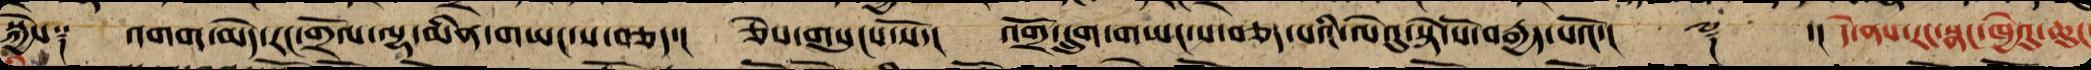སྐྱེས༑ འགག་མེད་རང་གྲོལ་ལྷ་མིན་གཡང་ས་བཅད་། ཅེས་གསུངས་སོ་། འགྲོ་དྲུག་གཡང་ས་བཅད་པའི་ལེའུ་སྟེ་སོ་བརྒྱད་པའོ་།། ༈ ་། དེ་ནས་རང་སྣང་ཁྱེའུ་ཆུང་
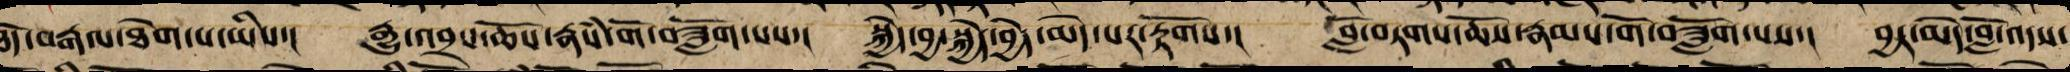ཐོད་རྒལ་ཐེག་པ་ཡིས་། རྒྱུ་འབྲས་ཆོས་རྣཾས་གོ་བཟློག་པས་། སྐྱེད་བྱ་སྐྱེད་བྱེད་མེད་པར་རྟོགས་། བློ་བཏགས་ཆོས་རྣམས་གོ་བཟློག་པས་། བྱར་མེད་བློ་འདས་
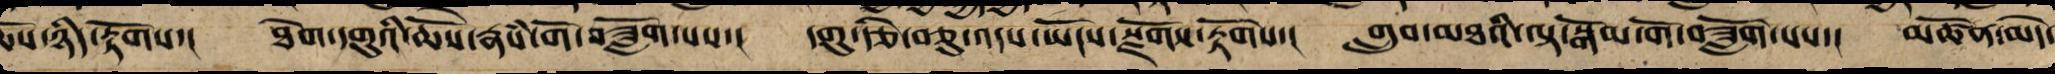ཆོས་ཉིད་རྟོགས་། ཐེག་དགུའི་ཆོས་རྣཾས་གོ་བཟློག་པས་། དགུ་རྩེ་བཅུ་འདས་ཡོངས་སྫོགས་རྟོགས་། གྲུབ་མཐའི་ལྟ་སྒོམ་གོ་བཟློག་པས་། མཚོན་མེད་
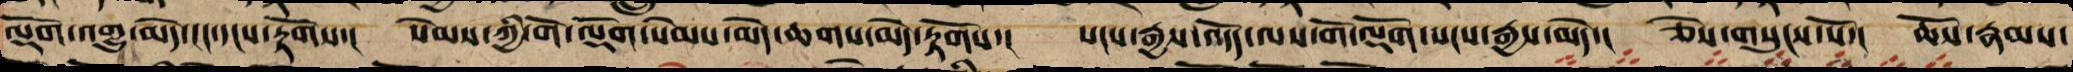བཟློག་འགྱུ་མེད་ངང་དྭངས་རྟོགས་། སེམས་ཀྱི་གོ་བཟློག་སེམས་མེད་ཆགས་མེད་རྟོགས་། སངས་རྒྱས་འདོད་ལས་གོ་བཟློག་སངས་རྒྱས་མེད་། ཅེས་གསུངས་སོ་། ཆོས་རྣམས་
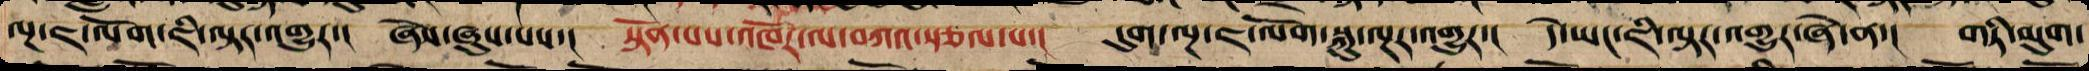ལྔ་ཇ་ལོག་ཇི་ལྟར་འགྱུར་། ཞེས་ཞུས་པས་། སྟོན་པས་འཁོར་ལ་བཀའ་སྩལ་པ་། དུག་ལྔ་ཇ་ལོག་སྐུ་ལྔར་འགྱུར་། དེ་ཡང་ཇི་ལྟར་འགྱུར་ཞེ་ན་། གཏི་མུག་
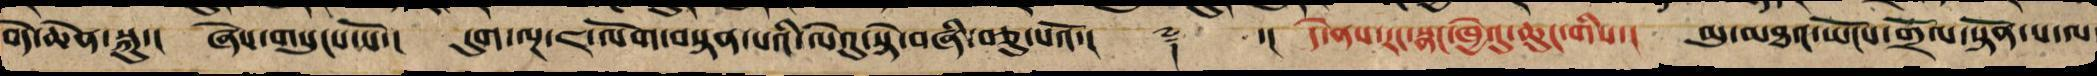བདེ་ཆེན་སྐུ་། ཞེས་གསུངས་སོ་། དུག་ལྔ་ཇ་ལོག་བསྟན་པའི་ལེའུ་སྟེ་བཞི་བཅུ་པའོ་། ༈ ་། དེ་ནས་རང་སྣང་ཁྱེའུ་ཆུང་གིད་། མུ་མཐའ་ཡོངས་གྲོལ་སྟོན་པ་ལ
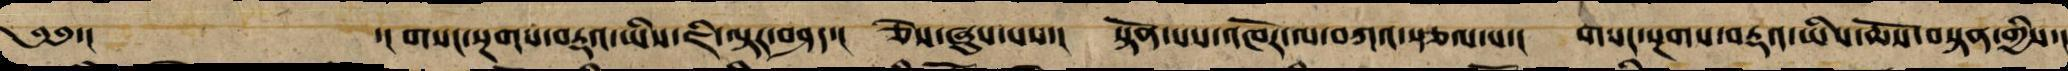༄༅་། ་། གསང་སྔགས་བརྡའ་ཡིས་ཇི་ལྟར་བཤད་། ཅེས་ཞུས་པས། སྟོན་པས་འཁོར་ལ་བཀའ་སྩལ་པ་། གསང་སྔགས་བརྡའ་ཡིས་ཆོས་བསྟན་གྱིས་།
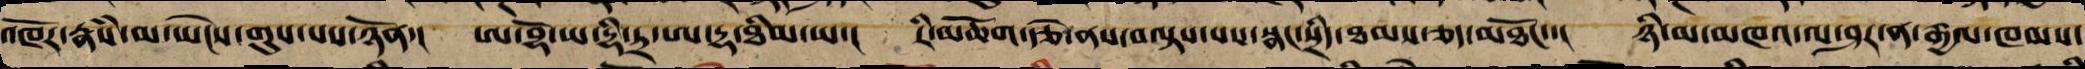འཁོར་རྣཾས་མ་ཡེངས་གུས་པས་ཉོན་། ཨ་བྷོ་ཡ་དྷི་ཏྲ་ཨ་དྷ་ཐིམ་ཡ་། རི་མཆོག་རྩེ་ནས་བལྟས་པས་སྣང་སྲིད་ཐམས་ཅད་མཐོང་། ཉི་མ་མཁའ་ལ་ཤར་ན་རྒྱལ་ཁམས་
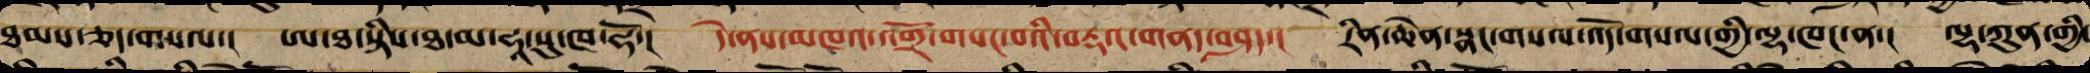ཐམས་ཅད་གསལ་། ཨ་ཐ་སྡིས་ཐ་མ་ཧཱ་སུ་ཁ་ཧོ་། དེ་ནས་མཁའ་འགྲོ་གསང་བའི་བརྡའ་གནད་བཤད་། རིན་ཆེན་སྣང་གསལ་འོད་གསལ་གྱི་ལྷ་ཁང་ན་། ལྷ་ཀུན་གྱི་
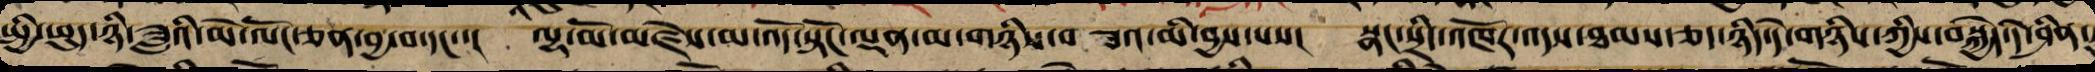སྤྱི་ཕུད་ཉི་ཟླའི་མེ་ལོང་ཅན་བྱ་བ་དང་་། ལྷ་མོ་མཛེས་མ་འོད་སྟོང་ལྡན་མ་གཉིས་བཟའ་མི་བྱས་པས་། སྣང་སྲིད་འཁོར་འདས་ཐམས་ཅད་ཉིད་དེ་གཉིས་ཀྱིས་བསྐྱེད་དེ་ཤིན་ཏུ་
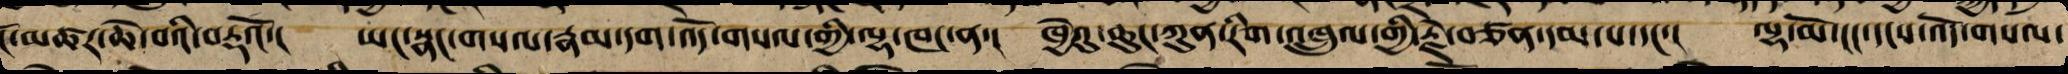ངོ་མཚར་ཆེ་བའི་བརྡའོ་། ཡང་སྣང་གསལ་རྣམ་དག་འོད་གསལ་གྱི་ལྷ་ཁང་ན་། ཁྱེའུ་ཆུང་ཀུན་རིག་འཕྲུལ་གྱི་རྗེ་བཙན་དམ་པ་དང་། ལྷ་མོ་ངང་དངས་འོད་གསལ་
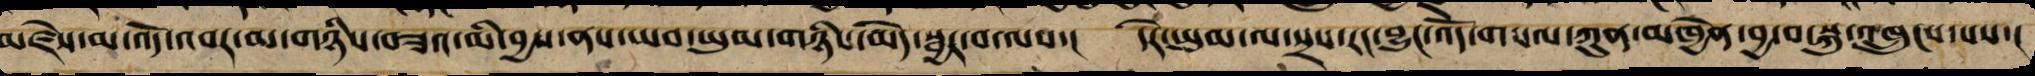མཛེས་མ་འོད་འབར་མ་གཉིས་བཟའ་མི་བྱས་ནས་ཡབ་ཡུམ་གཉིས་མེད་སྦྱར་བ་ལས་། དེར་ཡུམ་ལ་སྲས་རང་བྱུང་འོད་གསལ་ཀུན་མཁྱེན་བྱ་བ་སྐུ་འཁྲུངས་པས་།
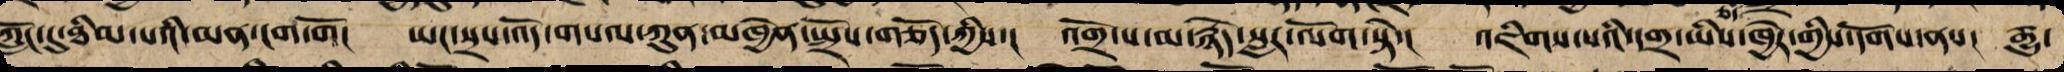ཀློང་དུ་ཐིམ་པའི་མན་ངག་གོ། ཡང་སྲས་འོད་གསལ་ཀུན་མཁྱེན་སྤྲོས་གཅོད་ཀྱིས་། འགྲོ་ས་མ་རྙེད་སླར་ལོག་སྟེ་། འཇིགས་པའི་དགྲ་ཡིས་ཁྱེར་གྱིས་དོགས་ནས། རྒྱུ་
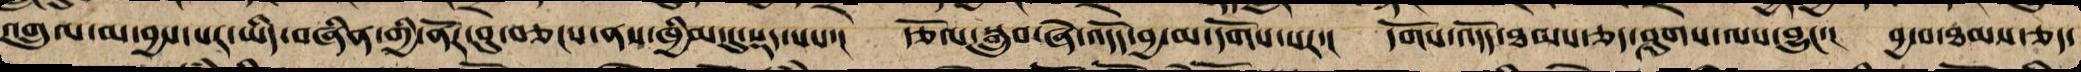འགྲུལ་མ་བྱས་པར་ཡིད་བཞིན་གྱི་ནོར་བུ་བཅངས་ནས་ཁྱིམ་དུ་སྡད་པས་། རྩོལ་སྒྲུབ་ཞེ་འདོད་བྱ་མ་དགོས་པར་། དགོས་འདོད་ཐམས་ཅད་ཤུགས་ལས་བྱུང་། བྱ་བ་ཐམས་ཅད་
